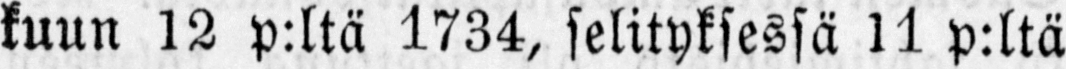kuun 12 p:ltä 1734, selityksessä 11 p:ltä
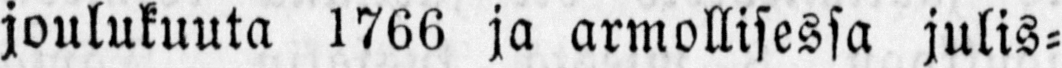joulukuuta 1766 ja armollisessa julis-
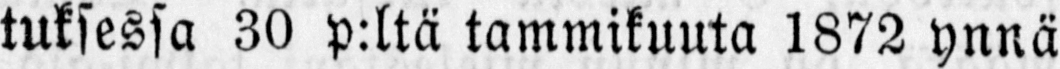tuksessa 30 p:ltä tammikuuta 1872 ynnä
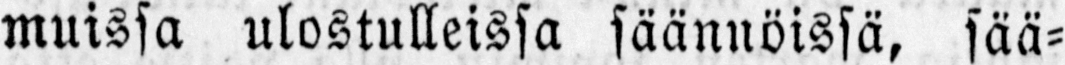muissa ulostulleissa säännöissä, sää-
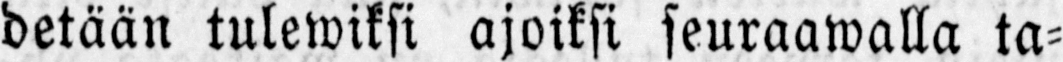detään tulewiksi ajoiksi seuraawalla ta-
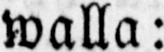walla:
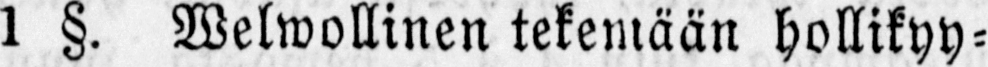1 §. Welwollinen tekemään hollikyy-
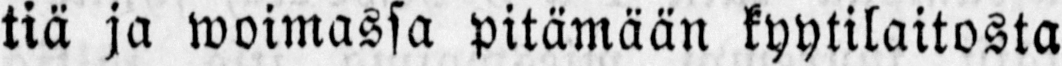tiä ja woimassa pitämään kyytilaitosta
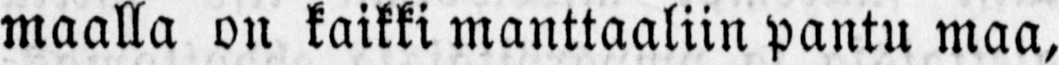maalla on kaikki manttaaliin pantu maa,
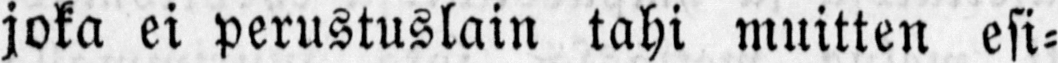joka ei perustuslain tahi muitten esi-
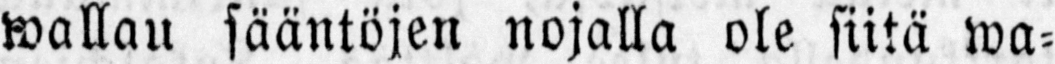wallau sääntöjen nojalla ole siitä wa-
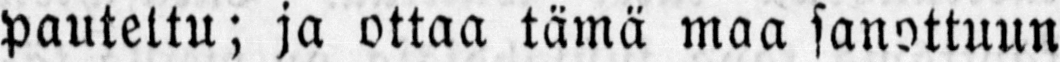pauteltu; ja ottaa tämä maa sanottuun
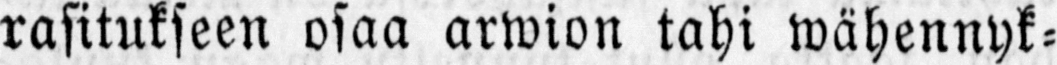rasitukseen osaa arwion tahi wähennyk-
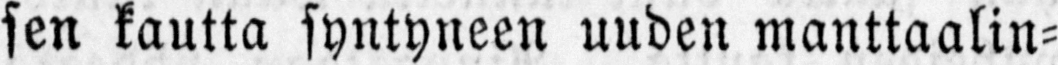sen kautta syntyneen uuden manttaalin-
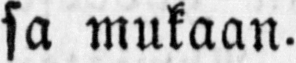sa mukaan.
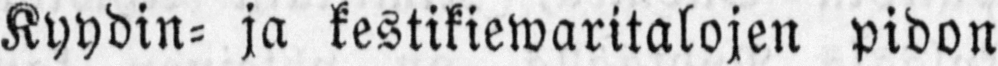Kyydin- ja kestikiewaritalojen pidon
